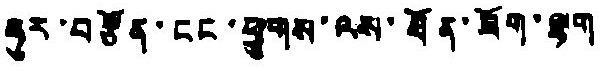ཧུར་བརྩོན་ངང་ཕྱུགས་ལས་ཐོན་ཟོག་ལྷག
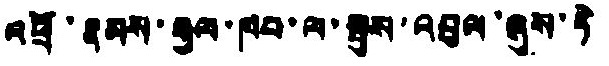འཕྲོ་རྣམས་རྒྱལ་ཁབ་ལ་སྤུས་འབུལ་ཞུས་ཏེ
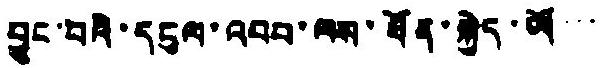བྱུང་བའི་དངུལ་འབབ་ལས་ཐོན་སྐྱེད་ཡོ་་་
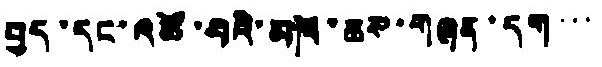བྱད་དང་འཚོ་བའི་མཁོ་ཆས་གཞན་དག་་་
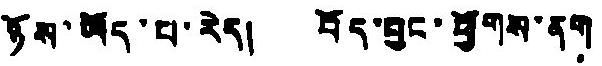ཉོས་ཡོད་པ་རེད། བོད་བྱང་ཕྱོགས་ནག
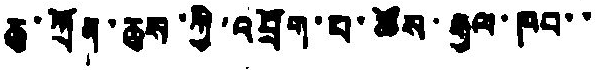ཆུ་ཀྲོན་ཆུས་ཀྱི་འབྲོག་པ་ཚོས་རྒྱལ་ཁབ་་
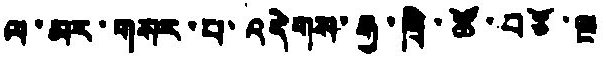ལ་མར་གསར་པ་འདེགས་རྒྱ་ཁྲི་ཚོ་བཅོ་ལྔ
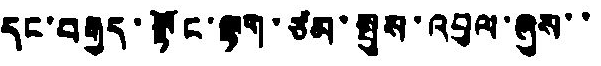དང་བརྒྱད་སྟོང་ལྷག་ཙམ་སྤུས་འབུལ་ཞུས་་
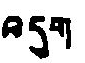འདུག
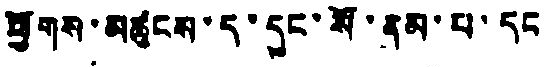ཕྱོགས་མཚུངས་ད་དུང་སོ་ནམ་པ་དང
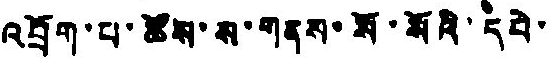འབྲོག་པ་ཚོས་ས་གནས་སོ་སོའི་དཔེ་
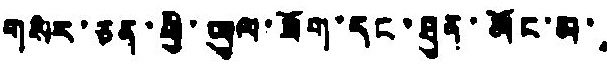གསར་ཅན་ཕྱི་ཡུལ་ཟོག་དང་ཐུན་མོང་མ་
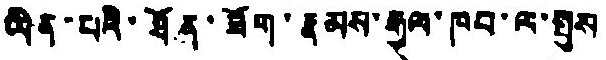ཡིན་པའི་ཐོན་ཟོག་རྣམས་རྒྱལ་ཁབ་ལ་སྤུས
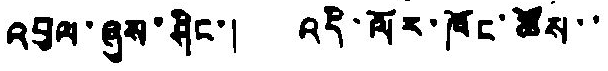འབུལ་ཞུས་ཤིང་། འདི་ལོར་ཁོང་ཚོས་་
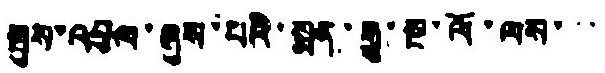སྤུས་འབུལ་ཞུས་པའི་སྨན་རྒྱུ་སྔ་ལོ་ལས་་་
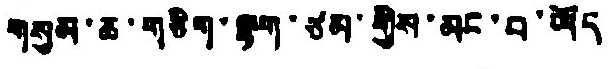གསུམ་ཆ་གཅིག་ལྷག་ཙམ་གྱིས་མང་བ་ཡོད
